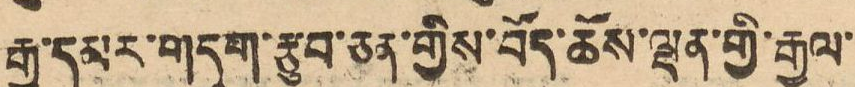རྒྱ་དམར་གདུག་རྩུབ་ཅན་གྱིས་བོད་ཆོས་ལྡན་གྱི་རྒྱལ་
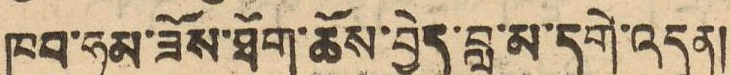ཁབ་ཧམ་ཟོས་ཐོག་ཆོས་བྱེད་བླ་མ་དགེ་འདུན།
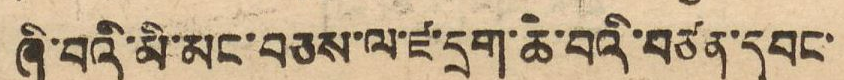ཞི་བའི་མི་མང་བཅས་ལ་ཛ་དྲག་ཆེ་བའི་བཙན་དབང་
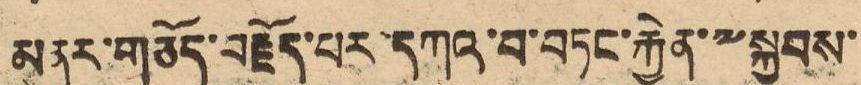མནར་གཅོད་བརྗོད་པར་དཀའ་བ་བཏང་རྐྱེན་༸སྐྱབས་
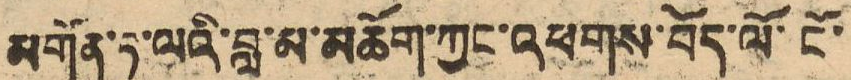མགོན་ཏཱ་ལའི་བླ་མ་མཆོག་ཀྱང་འཕགས་བོད་ལོ་ངོ་
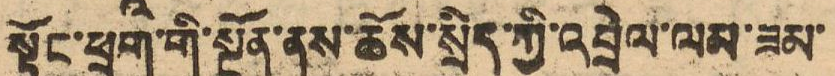སྟོང་ཕྲག་གི་སྔོན་ནས་ཆོས་སྲོད་ཀྱི་འབྲེལ་ལམ་ཟམ་
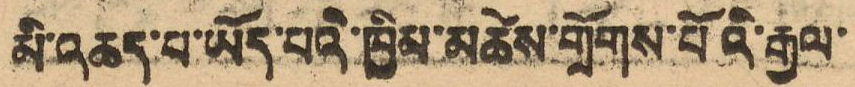མི་འཆད་པ་ཡོད་པའི་ཁྱིམ་མཚེས་གྲོགས་པོའི་རྒྱལ་
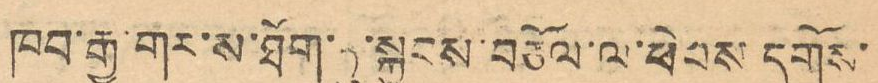ཁབ་རྒྱ་གར་ས་ཐོག་ཏུ་སྐྱབས་བཅོལ་ལ་ཕེབས དགོས་
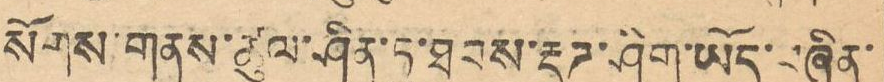སོགས་གནས་ཚུལ་ཤིན་ཏུ་ཐབས་རྡུཊ་ཤིག་ཡོད་བཞིན་
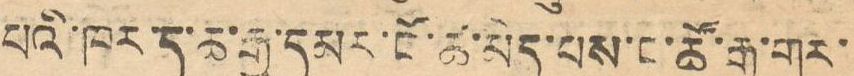པའི་ཁར་ད་ཆ་རྒྱ་དམར་ངོ་ཚ་མེད་པས་ང་ཚོ་རྒྱ་གར་
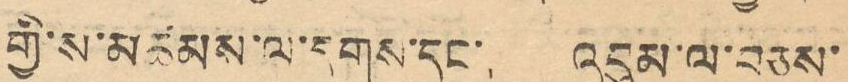གྱི་ས་མཚམས་ལ་དྭགས་དང་། འབུམ་ལ་བཅས་
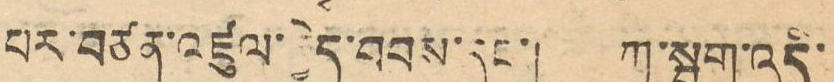པར་བཙན་འཛུལ་བྱེད་བབས་དང་། ཀ་སྦུག་འདི་
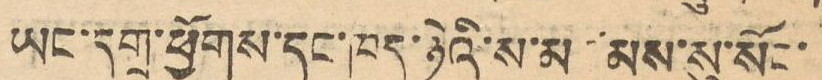ཡང་དགྲ་ཕྱོགས་དང་ཁད་ཉིའི་ས་མཚམས་སུ་སོང་
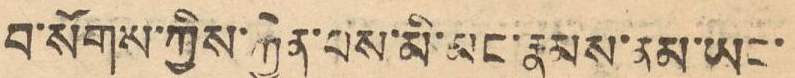བ་སོགས་ཀྱིས་རྐྱེན་པས་མི་མང་རྣམས་ནམ་ཡང་
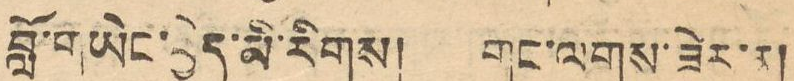བློ་གཡེང་བྱེད་མི་རིགས། གང་ལགས་སེར་ན།
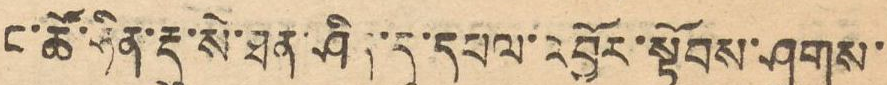ང་ཚོ་ཧིན་རྡུ་སེ་ཐན་ཤིད་དུ་དཔལ་འབྱོར་སྟོབས་ཤུགས་
